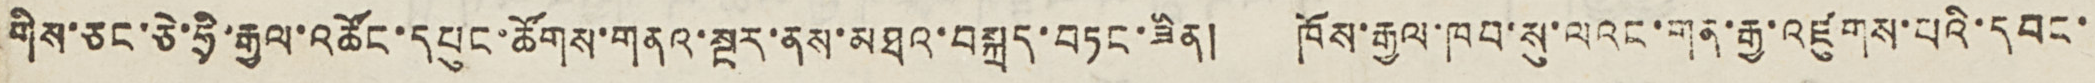གིས་ཅང་ཅེ་ཧྲི་རྒྱལ་འཚོང་དཔུང་ཚོགས་གནའ་སྔར་ནས་མཐའ་བསྐྲད་བཏང་ཟིན། ཁོས་རྒྱལ་ཁབ་སུ་ལའང་གན་རྒྱ་འཛུགས་པའི་དབང་
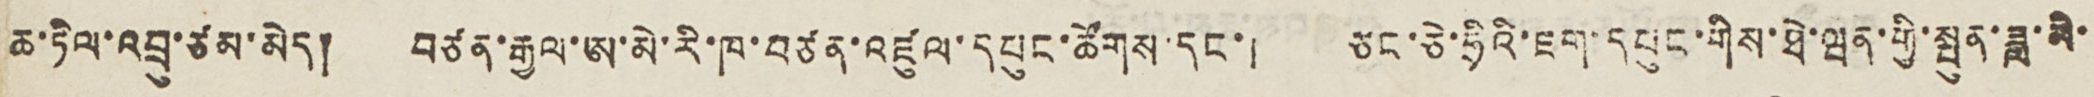ཆ་ཏིལ་འབྲུ་ཙམ་མེད། བཙན་རྒྱལ་ཨ་མེ་རི་ཁ་བཙན་འཛུལ་དཔུང་ཚོགས་དང་། ཅང་ཅེ་ཧྲིའི་ཇག་དཔུང་གིས་ཐེ་ཝན་གྱི་སྤུན་ཟླ་མི་
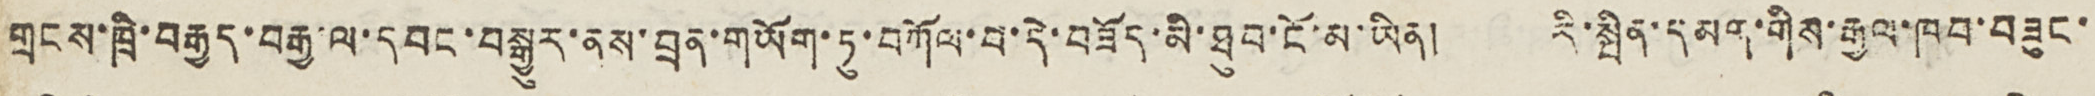གྲངས་ཁྲི་བརྒྱད་བརྒྱ་ལ་དབང་བསྒྱུར་ནས་བྲན་གཡོག་ཏུ་བཀོལ་བ་དེ་བཟོད་མི་ཐུབ་ངོ་མ་ཡིན། རི་སྤིན་དམག་གིས་རྒྱལ་ཁབ་བཟུང་
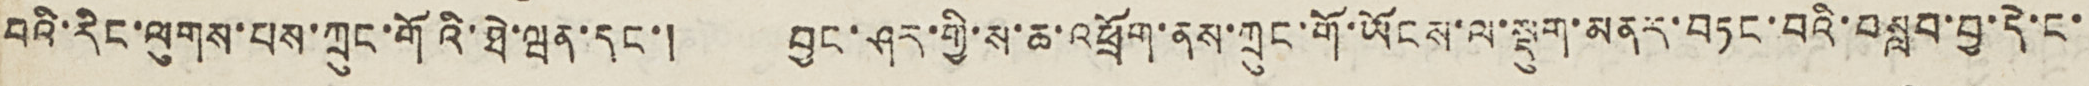བའི་རིང་ལུགས་པས་ཀྲུང་གོའི་ཐེ་ཝན་དང་། བྱང་ཤར་གྱི་ས་ཆ་འཕྲོག་ནས་ཀྲུང་གོ་ཡོངས་ལ་སྡུག་མནར་བཏང་བའི་བསླབ་བྱ་དེ་ང་
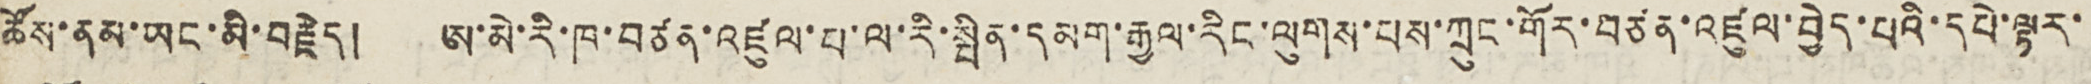ཚོས་ནམ་ཡང་མི་བརྗེད། ཨ་མེ་རི་ཁ་བཙན་འཛུལ་བ་ལ་རི་སྤིན་དམག་རྒྱལ་རིང་ལུགས་པས་ཀྲུང་གོར་བཙན་འཛུལ་བྱེད་པའི་དཔེ་ལྟར་
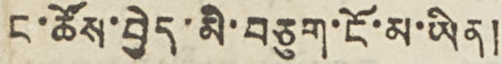ང་ཚོས་བྱེད་མི་བཅུག་ངོ་མ་ཡིན།
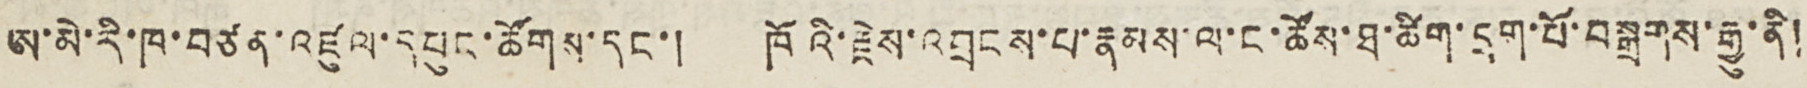ཨ་མེ་རི་ཁ་བཙན་འཛུལ་དཔུང་ཚོགས་དང་། ཁོའི་རྗེས་འབྲངས་པ་རྣམས་ལ་ང་ཚོས་ཐ་ཚིག་དྲག་པོ་བསྒྲགས་རྒྱུ་ནི།
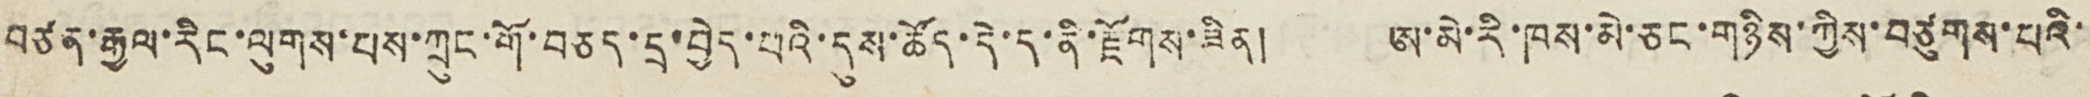བཙན་རྒྱལ་རིང་ལུགས་པས་ཀྲུང་གོ་བཅད་དྲ་བྱེད་པའི་དུས་ཚོད་དེ་ད་ནི་རྫོགས་ཟིན། ཨ་མེ་རི་ཁས་མེ་ཅང་གཉིས་བཙུགས་པའི་
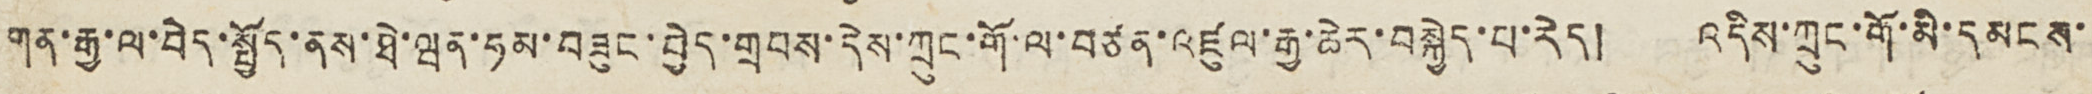གན་རྒྱ་ལ་བེད་སྤྱོད་ནས་ཐེ་ཝན་ཧམ་བཟུང་བྱེད་གྲབས་དེས་ཀྲུང་གོ་ལ་བཙན་འཛུལ་རྒྱ་ཆེར་བསྐྱེད་པ་རེད། འདིས་ཀྲུང་གོ་མི་དམངས་
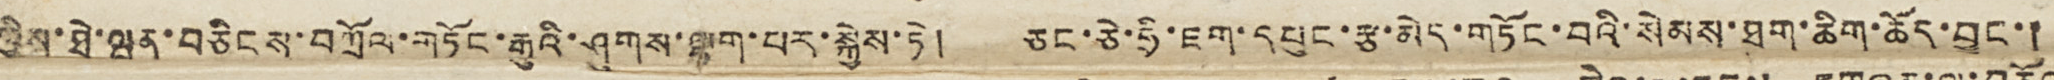ཀྱིས་ཐེ་ཝན་བཅིངས་བཀྲོལ་གཏོང་རྒྱུའི་ཤུགས་ལྷག་པར་སྐྱེས་ཏེ། ཅང་ཅེ་ཧྲི་ཇག་འཔུང་རྩ་མེད་གཏོང་བའི་སེམས་ཐག་ཆིག་ཆོད་བྱུང་།
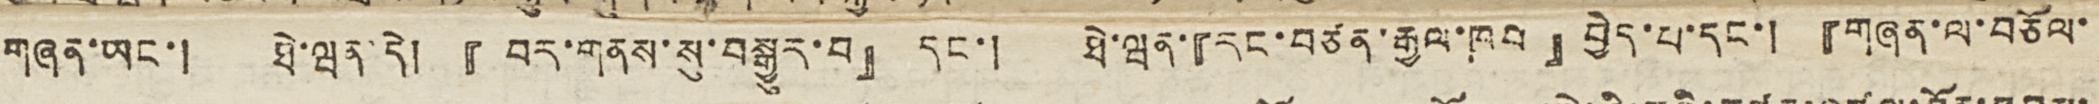གཞན་ཡང་། ཐེ་ཝན་དེ། 『བར་གནས་སུ་བསྒྱུར་བ』 དང་། ཐེ་ཝན་『རང་བཙན་རྒྱལ་ཁབ』བྱེད་པ་དང་། 『གཞན་ལ་བཅོལ་
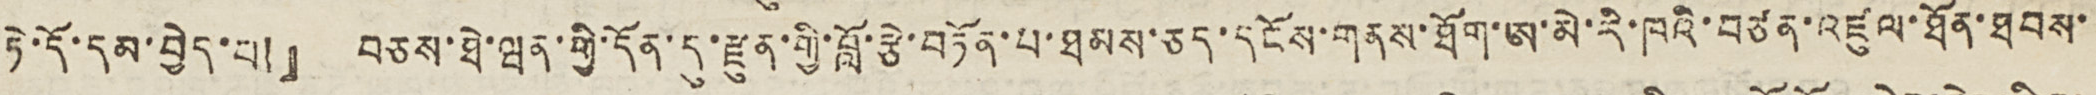ཏེ་དོ་དམ་བྱེད་པ།』 བཅས་ཐེ་ཝན་གྱི་དོན་དུ་རྫུན་གྱི་བློ་རྩེ་བཏོན་པ་ཐམས་ཅད་དངོས་གནས་ཐོག་ཨ་མེ་རི་ཁའི་བཙན་འཛུལ་ཐོན་ཐབས་
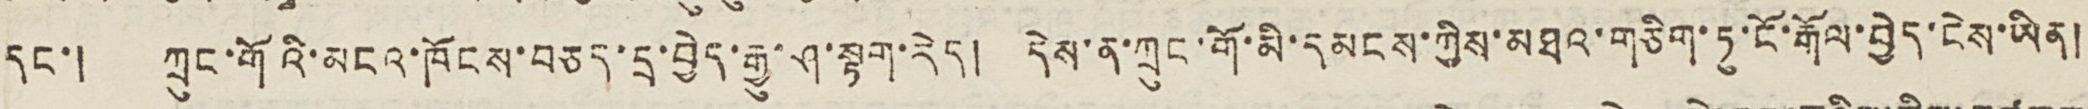དང་། ཀྲུང་གོའི་མངའ་ཁོངས་བཅད་དྲ་བྱེད་རྒྱུ་ཤ་སྟག་རེད། དེས་ན་ཀྲུང་གོ་མི་དམངས་ཀྱིས་མཐའ་གཅིག་ཏུ་ངོ་རྒོལ་བྱེད་ངེས་ཡིན།
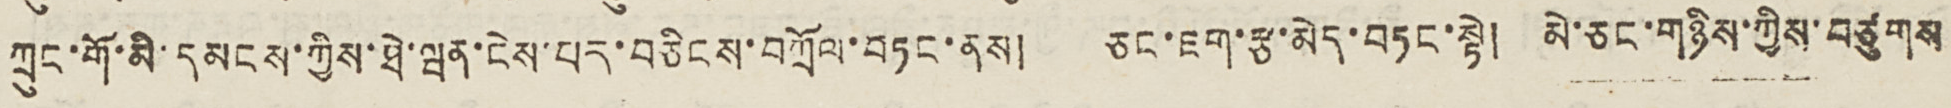ཀྲུང་གོ་མི་དམངས་ཀྱིས་ཐེ་ཝན་ངེས་པར་བཅིངས་བཀྲོལ་བཏང་ནས། ཅང་ཇག་རྩ་མེད་བཏང་སྟེ། མེ་ཅང་གཉིས་ཀྱིས་བཙུགས
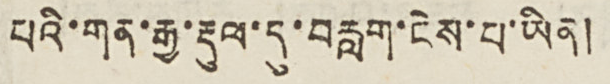པའི་གན་རྒྱ་རྡུལ་དུ་བརླག་ངེས་པ་ཡིན།
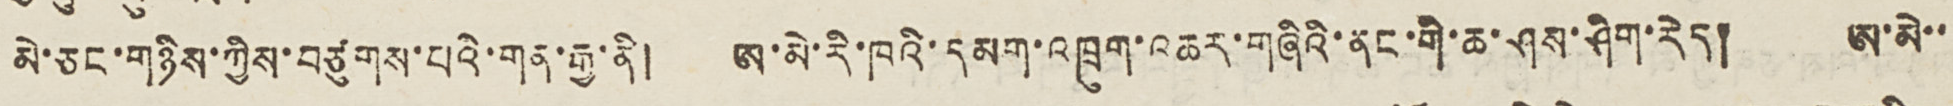མེ་ཅང་གཉིས་ཀྱིས་བཙུགས་པའི་གན་རྒྱ་ནི། ཨ་མེ་རི་ཁའི་དམག་འཁྲུག་འཆར་གཞིའི་ནང་གི་ཆ་ཤས་ཤིག་རེད། ཨ་མེ་་
